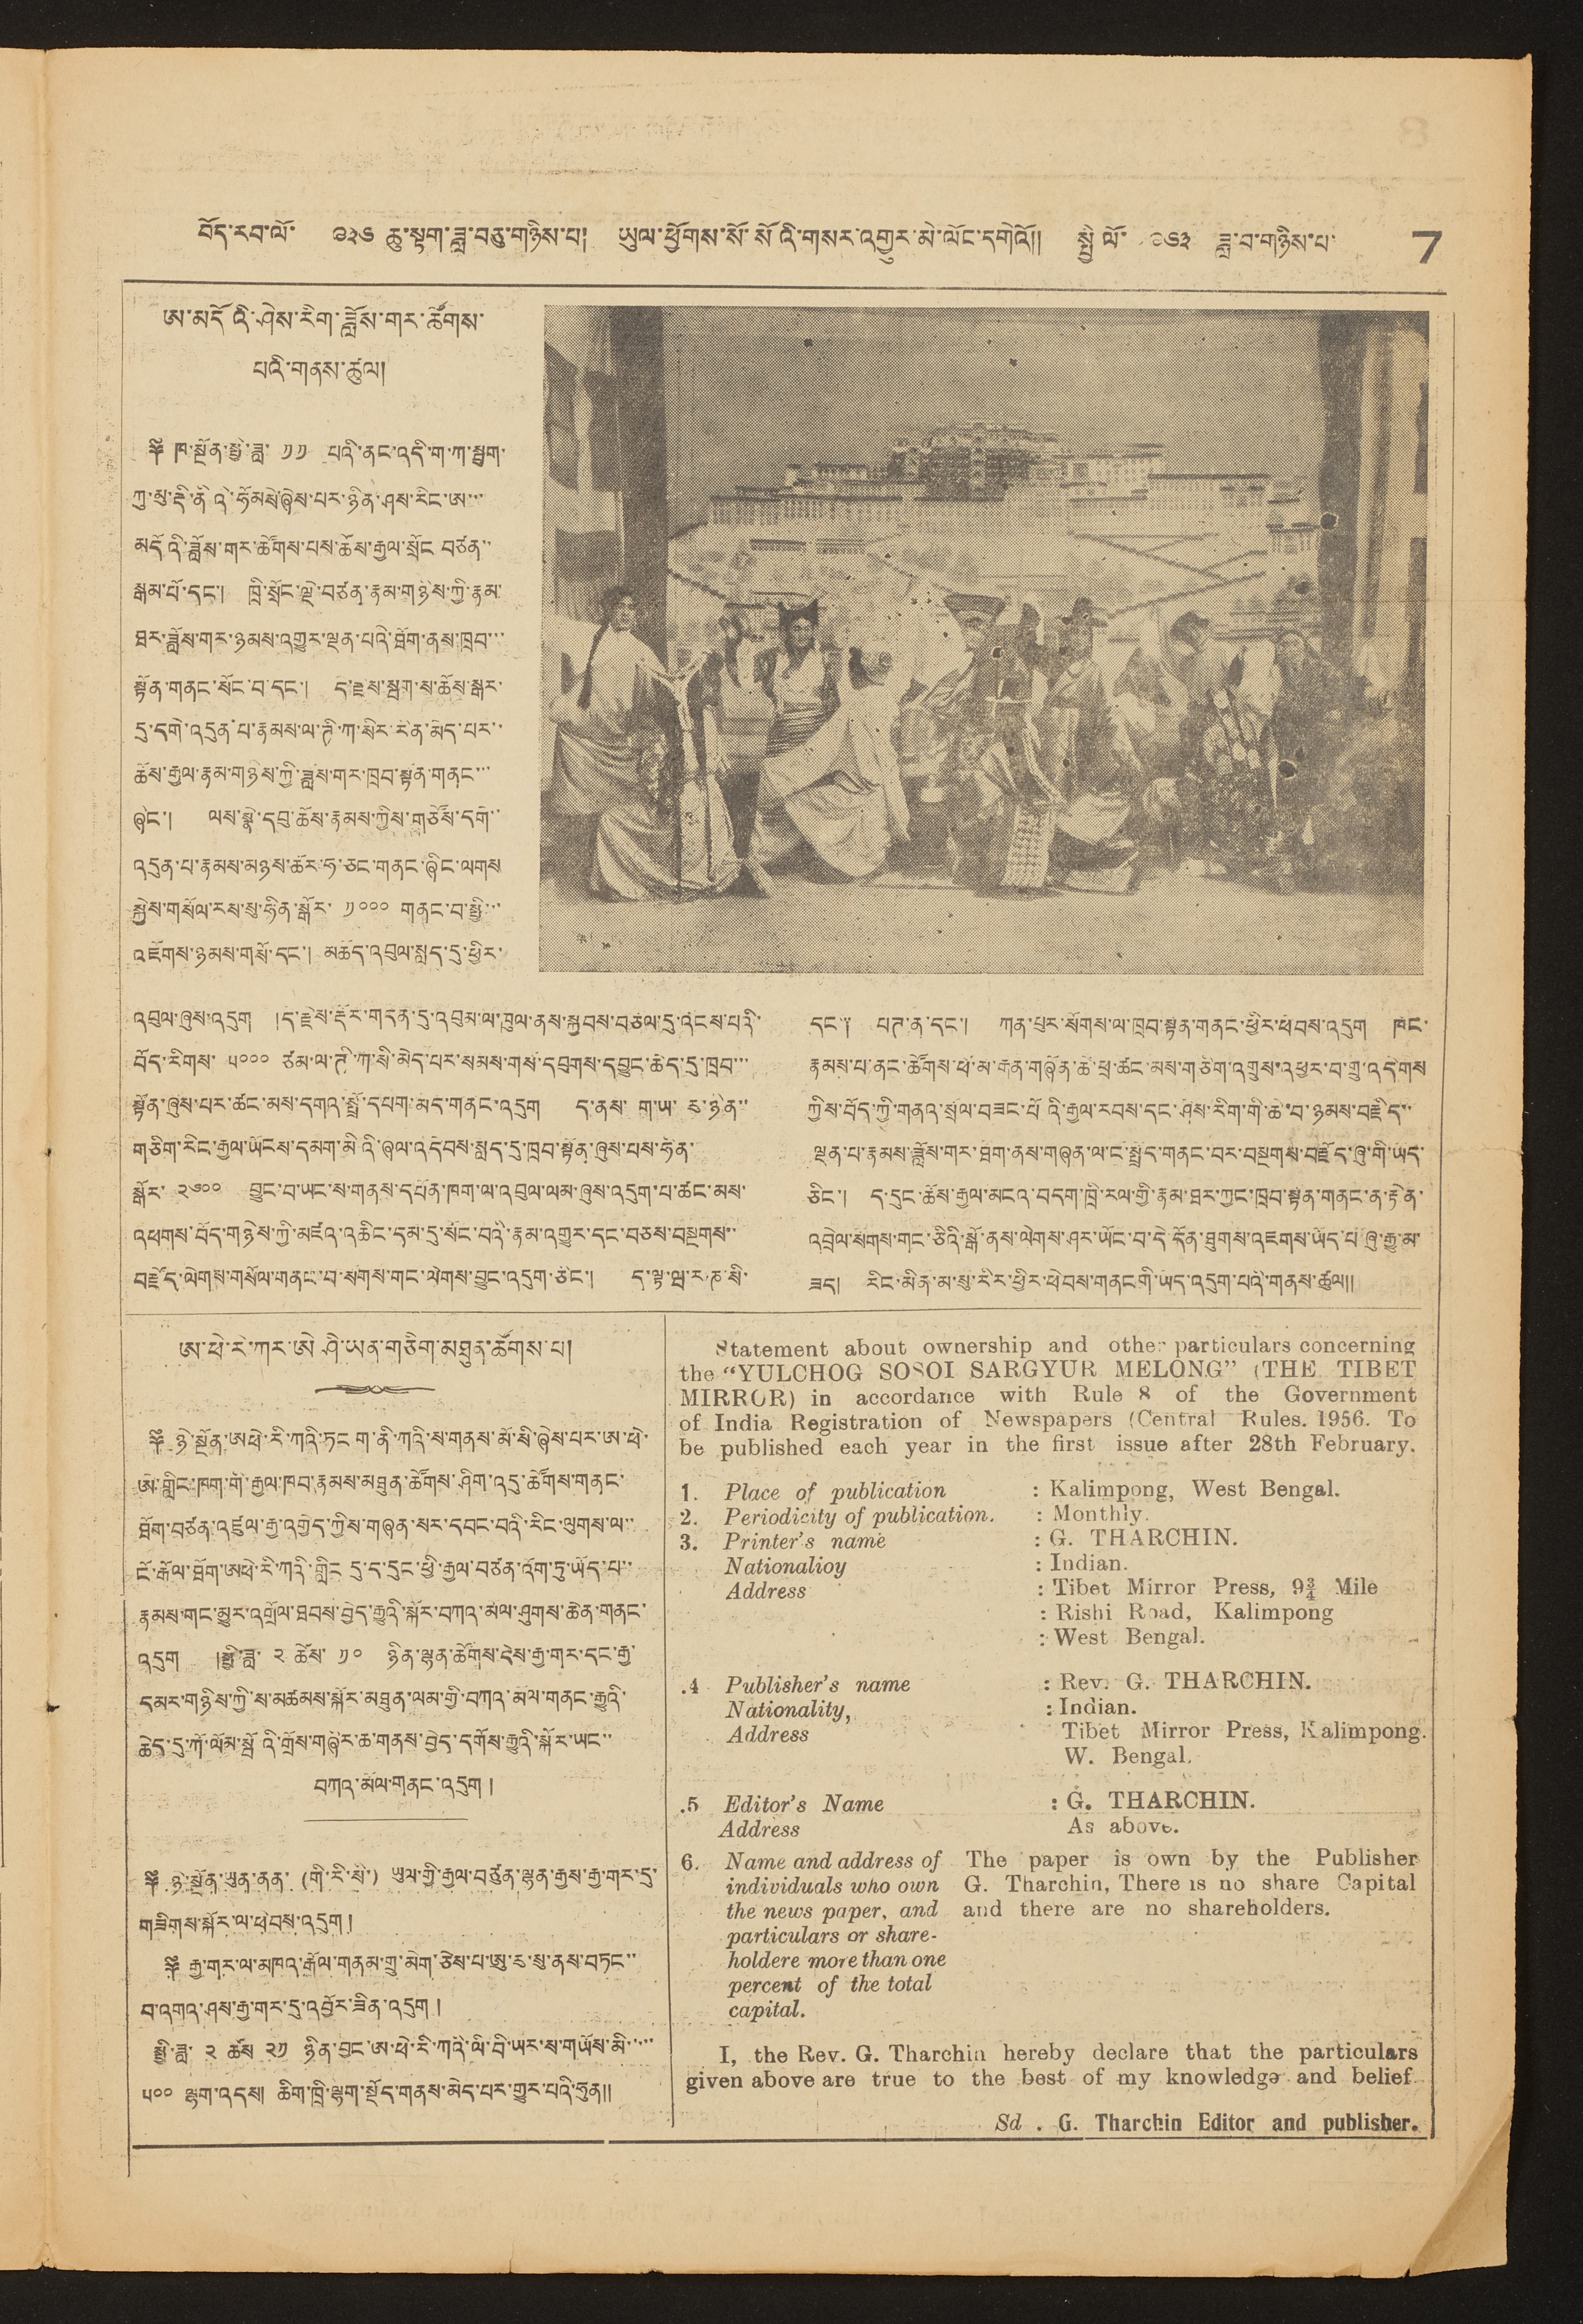བོད་རབ་ལོ་ ༩༣༦ ཆུ་སྟག་ཟླ་བཅུ་གཉིས་པ། ཡུལ་ཕྱོགས་སོ་སོའི་གསར་འགྱུར་མེ་ལོང་དགེའོ།། སྤྱི་ལོ་ ༩༦༣ ཟླ་བ་གཉིས་པ་ 7
ཨ་མདོའི་ཤེས་རིག་ཟློས་གར་ཚོགས་
པའི་གནས་ཚུལ།
༈ ཁ་སྔོན་སྤྱི་ཟླ་ ༡༡ པའི་ནང་འདི་ག་ཀ་སྦུག་
ཀུ་མུ་རྡི་ནིའི་ཧོམསེ་ཞེས་པར་ཉིན་ཤས་རིང་ཨ་་་
མདོའི་ཟློས་གར་ཚོགས་པས་ཆོས་རྒྱལ་སྲོང བཙན་་
སྒམ་པོ་དང་། ཁྲི་སྲོང་ལྡེ་བཙན་རྣམ་གཉིས་ཀྱི་རྣམ་
ཐར་ཟློས་གར་ཉམས་འགྱུར་ལྡན་པའི་ཐོག་ནས་ཁྲབ་་་
སྟོན་གནང་སོང་བ་དང་། དེ་རྗས་སྦག་ས་ཆོས་སྒར་
དུ་དགེ་འདུན་པ་རྣམས་ལ་ཊེ་ཀ་སིར་རིན་མེད་པར་་
ཆོས་རྒྱལ་རྣམ་གཉིས་ཀྱི་ཟློས་གར་ཁྲབ་སྟོན་གནང་་་
ཞིང་། ལས་སྣེ་དབུ་ཆོས་རྣམས་ཀྱིས་གཙོས་དགེ་་
འདུན་པ་རྣམས་མཉམ་ཆོར་ཧ་ཅང་གནང་ཞིང་ལགས
སྐྱེས་གསོལ་རས་སུ་ཧིན་སྒོར་ ༡༠༠༠ གནང་བ་སྤྱི་་་
འཇོགས་ཉམས་གསོ་དང་། མཆོད་འབུལ་སླད་དུ་ཕྱིར་
འབུལ་ཞུས་འདུག །དེ་རྗེས་རྡོར་གདན་དུ་འབུམ་ལ་ཁུལ་ནས་སྐྱབས་བཅལ་དུ་འོངས་པའི་
བོད་རིགས་ ༥༠༠༠ ཙམ་ལ་ཊི་ཀ་སི་མེད་པར་སམས་གསོ་དབུགས་དབྱུང་ཆེད་དུ་ཁྲབ་་་
སྟོན་ཞུས་པར་ཚང་མས་དགའ་སྤྲོ་དཔག་མད་གནང་འདུག ད་ནས་ ག་ཡ་ རུ་ཉིན་་
གཅིག་རིང་རྒྱལ་ཡོངས་དམག་མིའི་ཞལ་འདེབས་སླད་དུ་ཁྲབ་སྟོན་ཞུས་པས་ཧིན་
སྒོར་ ༢༦༠༠ བྱུང་བ་ཡང་ས་གནས་དཔོན་ཁག་ལ་འབུལ་ལམ་ཞུས་འདུག་པ་ཚང་མས་
འཕགས་བོད་གཉིས་ཀྱི་མཛའ་འཆིང་དམ་དུ་སོང་བའི་རྣམ་འགྱུར་དང་བཅས་བསྔགས་་
བརྗོད་ལེགས་གསོལ་གནང་བ་སོགས་གང་ལེགས་བྱུང་འདུག་ཅིང་། ད་ལྟ་ཝ་ར་ཎ་སི་
དང༑ པཊ་ན་དང་། ཀན་པུར་སོགས་ལ་ཁྲབ་སྟན་གནང་ཕྱིར་ཕེབས་འདུག ཁོང་
རྣམས་པ་ནང་ཚོགས་ཕོ་མ་རྒན་གཞོན་ཆེ་ཕྲ་ཚང་མས་གཅིག་འགྲུས་འཕྱར་བ་གྲུ་འདེགས་
གྱིས་བོད་ཀྱི་གནའ་སྲོལ་བཟང་པོའི་རྒྱལ་རབས་དང་ཤེས་རིག་གི་ཆེ་བ་ཉམས་བརྗིད་་
ལྡན་པ་རྣམས་ཟློས་གར་ཐོག་ནས་གཞན་ལ་ང་སྤྲོད་གནང་བར་བསྔགས་བརྗོད་ཞུ་གི་ཡོད་
ཅིང་། ད་དུང་ཆོས་རྒྱའ་མངའ་བདག་ཁྲི་རལ་གྱི་རྣམ་ཐར་ཀྱང་ཁྲབ་སྟོན་གནང་ན་རྟེན་
འབྲེལ་སོགས་གང་ཅིའི་སྒོ་ནས་ལེགས་ཤར་ཡོང་བ་དེ་དོན་ཐུགས་འཇགས་ཡོད་བ་ཞུ་རྒྱུ་མ་
ཟད། རིང་མིན་མ་སུ་རིར་ཕྱིར་ཕེབས་གནང་གི་ཡོད་འདུག་པའི་གནས་ཚུལ།།
ཨ་ཕེ་རི་ཀར་ཨེ་ཤེ་ཡན་གཅིག་མཐུན་ཚོགས་པ།
༈ ཉེ་སྔོན་ཨཕེ་རི་ཀའི་ཏང ག་ནི་ཀའི་ས་གནས་མོ་སི་ཞེས་པར་ཨ་ཕེ་
ཨེ་གླིང་ཁག་གི་རྒྱལ་ཁབ་རྣམས་མཐུན་ཚོགས་ཤིག་འདུ་ཚོགས་གནང་
ཐོག་བཙན་འཛུལ་རྒྱ་འགྱེད་ཀྱིས་གཞན་སར་དབང་བའི་རིང་ལུགས་ལ་་
ངོ་རྒོལ་ཐོག་ཨཕེ་རི་ཀའི་གླིང དུ་ད་དུང་ཕྱི་རྒྱལ་བཙན་འོག་ཏུ་ཡོད་པ་་
རྣམས་གང་མྱུར་འགྲོལ་ཐབས་བྱེད་རྒྱུའི་སྐོར་བཀའ་མོལ་ཤུགས་ཆེན་གནང་
འདུག །སྤྱི་ཟླ་ ༢ ཚེས་ ༡༠ ཉིན་ལྷན་ཚོགས་དེས་རྒྱ་གར་དང་རྒྱ་
དམར་གཉིས་ཀྱི་ས་མཚམས་སྐོར་མཐུན་ལམ་གྱི་བཀའ་མོལ་གནང་རྒྱུའི་
ཆེད་དུ་ཀོ་ལོམ་སྦོའི་གྲོས་གཞིར་ཆ་གནས་བྱེད་དགོས་རྒྱུའི་སྐོར་ཡང་་
བཀའ་མོལ་གནང་འདུག །
༈ ཉེ་སྔོན་ཡུན་ནན་ (གི་རི་སི་) ཡུལ་གྱི་བཙུན་ལྷན་རྒྱས་རྒྱ་གར་དུ་
གཟིགས་སྐོར་ལ་ཕེབས་འདུག །
༈ རྒྱ་གར་ལ་མཁའ་རྒོལ་གནམ་གྲུ་མེག་ཅེས་པ་ཨུ་རུ་སུ་ནས་བཏང་་
བ་འགའ་ཤས་རྒྱ་གར་དུ་འབྱོར་ཟིན་འདུག །
སྤྱི་ཟླ་ ༢ ཚེས་ ༢༡ ཉིན་བྱང་ཨ་ཕི་རི་ཀའི་ལི་བི་ཡར་ས་གཡོག་མི་་་་་
༥༠༠ ལྷག་འདས། ཆིག་ཁྲི་ལྷག་སྡོད་གནས་མེད་པར་གྱུར་པའི་ཧུན།།
Statement about ownership and other particulars concerning
the ''YULCHOG SOSOI SARGYUR MELONG'' (THE TIBET
MIRROR) in accordance with Rule 8 of the Government
of India Registration of Newspapers (Central Rules. 1956. To
be published each year in the first issue after 28th February.
1. Place of publication : Kalimpong, West Bengal.
2. Periodicity of publication. :Monthly.
3. Printer's name : G. THARCHIN
Nationalioy : Indian.
Address : Tibet MIrror Press, 9¾ Mile
: Rishi Road, Kalimpong
: West Bengal.
.4 Publisher's name : Rev. G. THARCHIN.
Nationality, : Indian.
Address Tibet Mirror Press, Kalimpong.
W. Bengal.
.5 Editor's Name : G. THARCHIN
Addess As above
6. Name and address of The paper is own by the Publisher
individuals who own G. Tharchin, There is no share Capital
the news paper, and and there are no shareholders.
perticulars or share-
holdere more than one
percent of the total
capital.
I, the Rev. G. Tharchin hereby declare that the paticulars
given above are true to the best of my knowledge and belief
sd. G. Tharchin Editor and publisher.
